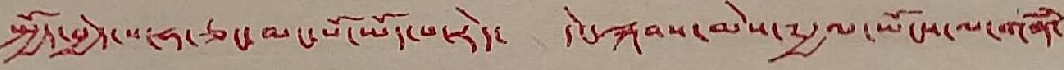སྤྱོད་བྱེད་པ་ཧ་ཅང་མང་པོ་ཡོད་པ་རེད་ དེང་སྐབས་མེས་༸རྒྱལ་ཡོངས་ལ་གནཾ་
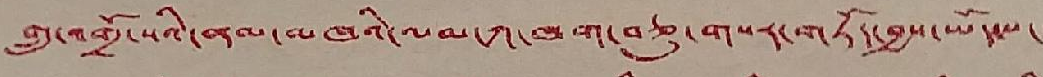གྲུ་འགྲོ་སའི་ནམ་མཁའི་ལམ་ཀ་ཁག་བཅུ་གསར་གཏོང་བྱས་ཡོད་པ་
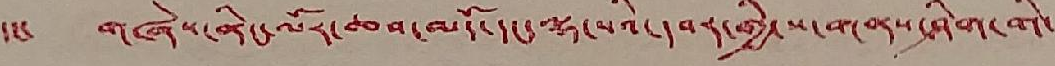དང་ གཞེས་ནིང་ལོར་ཆབ་མདོ་དང་ལྷ་སའི་དབར་གྱི་ས་གནས་ཤིག་གི་
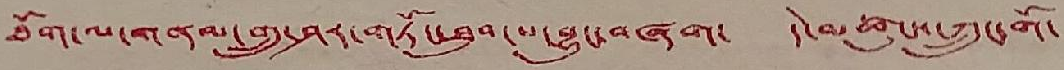ཐོག་ལ་གནམ་གྲུ་ཤར་གཏོང་ཐུབ་པ་བྱུང་བཞག་ དེ་མཚུངས་ཀྲུང་གོ་
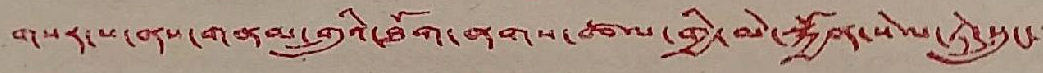གསར་པ་ནས་གནམ་གྲུའི་ཐོག་ནགས་ཚལ་གྱི་མེ་སྐྱོན་སེལ་ཏེ་སྲུང་་་
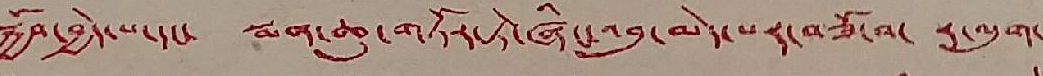སྐྱོབ་བྱེད་པ་དང་ སྨན་ཆུ་གཏོར་ཏེ་ཞིང་འབུ་མེད་པར་བཟོ་བ་ ར་ལུག་
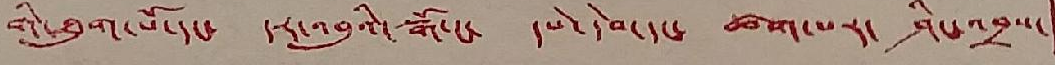གི་ཐུག་པོ་དང་ དར་འབུའི་སྒོ་ང་ དཔེ་དེབ་དང་ ཚག་པར་ ཤིང་འབྲས་
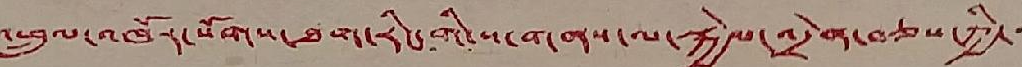འཕྲུལ་འཁོར་སོགས་ཐག་རིང་གི་ས་གནས་ལ་སྐྱེལ་འདྲེན་བཅས་ཀྱི་་་
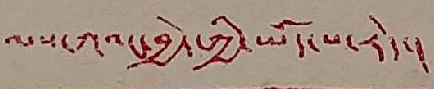ལས་ཀའང་བྱེད་ཀྱི་ཡོད་པ་རེད་།
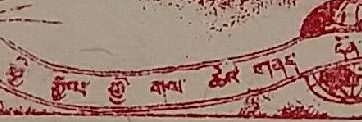ཕྱི་རྒྱལ་གྱི་གལ་ཆེའི་གནད་དོན་
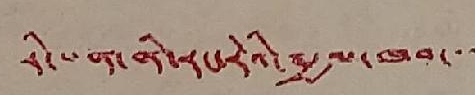རི་པན་ནི་རང་རེའི་༸རྒྱལ་ཁབ་་་
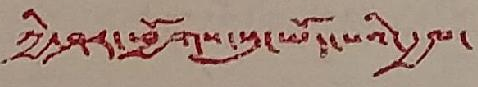ཀྱི་ཤར་ཕྱོགས་སུ་ཡོད་པའི་རྒྱལ་
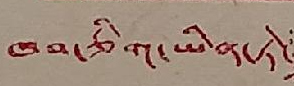ཁབ་ཅིག་ཡིན་ཏེ་
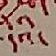དེའི་
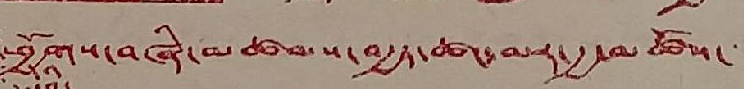ཕྱོགས་བཞི་མཚམས་བརྒྱད་ཚང་མར་རྒྱ་མཚོས་་་
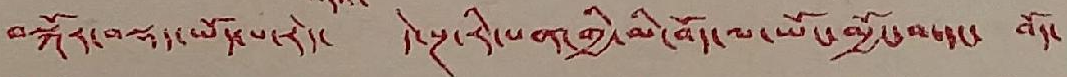བསྐོར་བསྡད་ཡོད་པ་རེད་ དེ་སྔ་རི་པན་གྱི་མི་བོད་ལ་ཡོང་མྱོང་བ་དང་ བོད་
